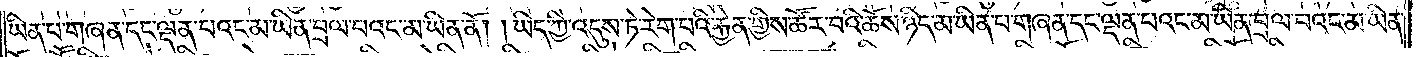ཡིན་པ་གཞན་དང་ལྡན་པའང་མ་ཡིན་བྲལ་བའང་མ་ཡིན་ནོ། །ཡིད་ཀྱི་འདུས་ཏེ་རེག་པའི་རྐྱེན་གྱིས་ཚོར་བའི་ཆོས་ཉིད་མ་ཡིན་པ་གཞན་དང་ལྡན་པའང་མ་ཡིན་བྲལ་བའང་མ་ཡིན་
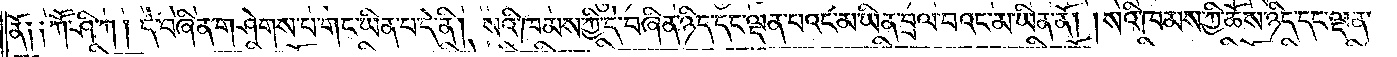ནོ༑ ༑ཀཽ་ཤི་ཀ །དེ་བཞིན་གཤེགས་པ་གང་ཡིན་པ་དེ་ནི། སའི་ཁམས་ཀྱི་དེ་བཞིན་ཉིད་དང་ལྡན་པའང་མ་ཡིན་བྲལ་བའང་མ་ཡིན་ནོ། །སའི་ཁམས་ཀྱི་ཆོས་ཉིད་དང་ལྡན་
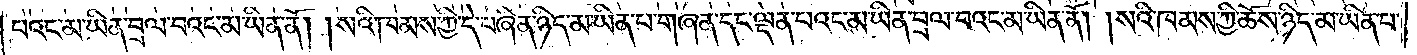པའང་མ་ཡིན་བྲལ་བའང་མ་ཡིན་ནོ། །སའི་ཁམས་ཀྱི་དེ་བཞིན་ཉིད་མ་ཡིན་པ་གཞན་དང་ལྡན་པའང་མ་ཡིན་བྲལ་བའང་མ་ཡིན་ནོ། །སའི་ཁམས་ཀྱི་ཆོས་ཉིད་མ་ཡིན་པ་
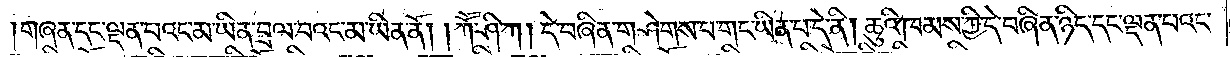གཞན་དང་ལྡན་པའང་མ་ཡིན་བྲལ་བའང་མ་ཡིན་ནོ། །ཀཽ་ཤི་ཀ །དེ་བཞིན་གཤེགས་པ་གང་ཡིན་པ་དེ་ནི། ཆུའི་ཁམས་ཀྱི་དེ་བཞིན་ཉིད་དང་ལྡན་པའང་
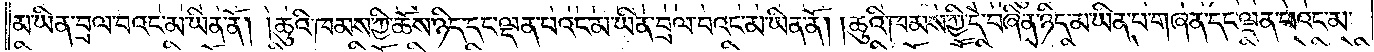མ་ཡིན་བྲལ་བའང་མ་ཡིན་ནོ། །ཆུའི་ཁམས་ཀྱི་ཆོས་ཉིད་དང་ལྡན་པའང་མ་ཡིན་བྲལ་བའང་མ་ཡིན་ནོ། །ཆུའི་ཁམས་ཀྱི་དེ་བཞིན་ཉིད་མ་ཡིན་པ་གཞན་དང་ལྡན་པའང་མ་
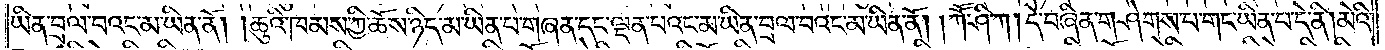ཡིན་བྲལ་བའང་མ་ཡིན་ནོ། །ཆུའི་ཁམས་ཀྱི་ཆོས་ཉིད་མ་ཡིན་པ་གཞན་དང་ལྡན་པའང་མ་ཡིན་བྲལ་བའང་མ་ཡིན་ནོ། །ཀཽ་ཤི་ཀ །དེ་བཞིན་གཤེགས་པ་གང་ཡིན་པ་དེ་ནི། མེའི་
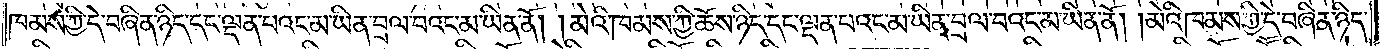ཁམས་ཀྱི་དེ་བཞིན་ཉིད་དང་ལྡན་པའང་མ་ཡིན་བྲལ་བའང་མ་ཡིན་ནོ། །མེའི་ཁམས་ཀྱི་ཆོས་ཉིད་དང་ལྡན་པའང་མ་ཡིན་བྲལ་བའང་མ་ཡིན་ནོ། །མེའི་ཁམས་ཀྱི་དེ་བཞིན་ཉིད་
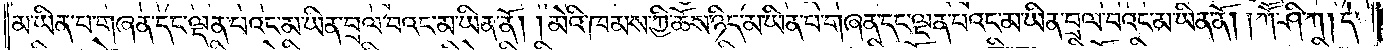མ་ཡིན་པ་གཞན་དང་ལྡན་པའང་མ་ཡིན་བྲལ་བའང་མ་ཡིན་ནོ། །མེའི་ཁམས་ཀྱི་ཆོས་ཉིད་མ་ཡིན་པ་གཞན་དང་ལྡན་པའང་མ་ཡིན་བྲལ་བའང་མ་ཡིན་ནོ། །ཀཽ་ཤི་ཀ །དེ་
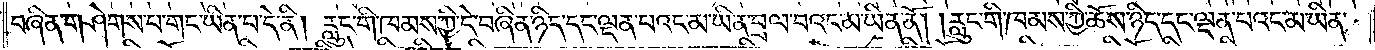བཞིན་གཤེགས་པ་གང་ཡིན་པ་དེ་ནི། རླུང་གི་ཁམས་ཀྱི་དེ་བཞིན་ཉིད་དང་ལྡན་པའང་མ་ཡིན་བྲལ་བའང་མ་ཡིན་ནོ། །རླུང་གི་ཁམས་ཀྱི་ཆོས་ཉིད་དང་ལྡན་པའང་མ་ཡིན་
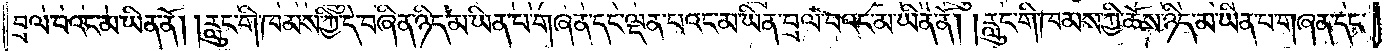བྲལ་བའང་མ་ཡིན་ནོ། །རླུང་གི་ཁམས་ཀྱི་དེ་བཞིན་ཉིད་མ་ཡིན་པ་གཞན་དང་ལྡན་པའང་མ་ཡིན་བྲལ་བའང་མ་ཡིན་ནོ། །རླུང་གི་ཁམས་ཀྱི་ཆོས་ཉིད་མ་ཡིན་པ་གཞན་དང་
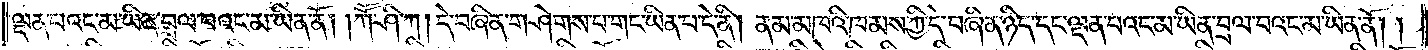ལྡན་པའང་མ་ཡིན་བྲལ་བའང་མ་ཡིན་ནོ། །ཀཽ་ཤི་ཀ །དེ་བཞིན་གཤེགས་པ་གང་ཡིན་པ་དེ་ནི། ནམ་མཁའི་ཁམས་ཀྱི་དེ་བཞིན་ཉིད་དང་ལྡན་པའང་མ་ཡིན་བྲལ་བའང་མ་ཡིན་ནོ། །
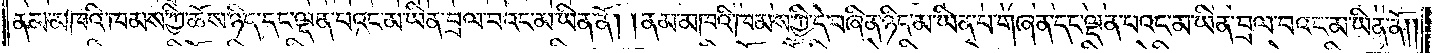ནམ་མཁའི་ཁམས་ཀྱི་ཆོས་ཉིད་དང་ལྡན་པའང་མ་ཡིན་བྲལ་བའང་མ་ཡིན་ནོ། །ནམ་མཁའི་ཁམས་ཀྱི་དེ་བཞིན་ཉིད་མ་ཡིན་པ་གཞན་དང་ལྡན་པའང་མ་ཡིན་བྲལ་བའང་མ་ཡིན་ནོ། །
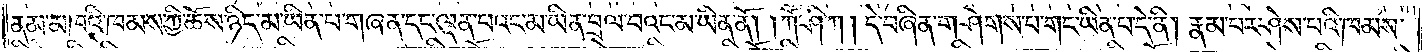ནམ་མཁའི་ཁམས་ཀྱི་ཆོས་ཉིད་མ་ཡིན་པ་གཞན་དང་ལྡན་པའང་མ་ཡིན་བྲལ་བའང་མ་ཡིན་ནོ། །ཀཽ་ཤི་ཀ །དེ་བཞིན་གཤེགས་པ་གང་ཡིན་པ་དེ་ནི། རྣམ་པར་ཤེས་པའི་ཁམས་
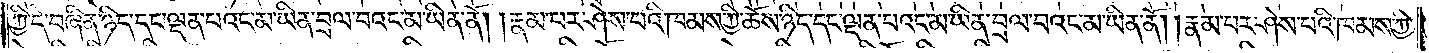ཀྱི་དེ་བཞིན་ཉིད་དང་ལྡན་པའང་མ་ཡིན་བྲལ་བའང་མ་ཡིན་ནོ། །རྣམ་པར་ཤེས་པའི་ཁམས་ཀྱི་ཆོས་ཉིད་དང་ལྡན་པའང་མ་ཡིན་བྲལ་བའང་མ་ཡིན་ནོ། །རྣམ་པར་ཤེས་པའི་ཁམས་ཀྱི་
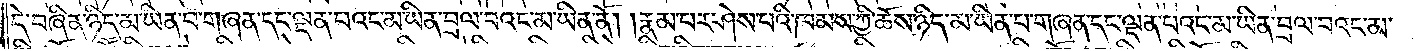དེ་བཞིན་ཉིད་མ་ཡིན་པ་གཞན་དང་ལྡན་པའང་མ་ཡིན་བྲལ་བའང་མ་ཡིན་ནོ། །རྣམ་པར་ཤེས་པའི་ཁམས་ཀྱི་ཆོས་ཉིད་མ་ཡིན་པ་གཞན་དང་ལྡན་པའང་མ་ཡིན་བྲལ་བའང་མ་
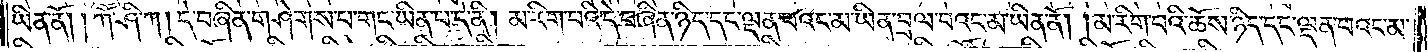ཡིན་ནོ། །ཀཽ་ཤི་ཀ །དེ་བཞིན་གཤེགས་པ་གང་ཡིན་པ་དེ་ནི། མ་རིག་པའི་དེ་བཞིན་ཉིད་དང་ལྡན་པའང་མ་ཡིན་བྲལ་བའང་མ་ཡིན་ནོ། །མ་རིག་པའི་ཆོས་ཉིད་དང་ལྡན་པའང་མ་
